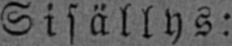Sisällys:
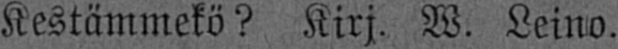Kestämmekö? Kirj. W. Leino.
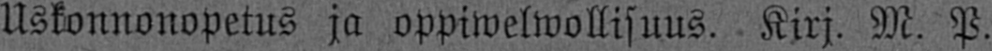Uskonnonopetus ja oppiwelwollisuus. Kirj. M. P.
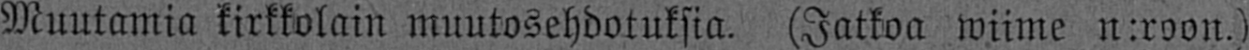Muutamia kirkkolain muutosehdotuksia. (Jatkoa wiime n:roon.)
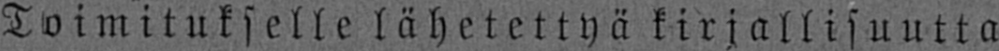Toimitukselle lähetettyä kirjallisuutta.
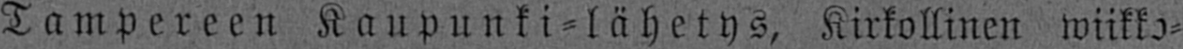Tampereen Kaupunki-lähetys, Kirkollinen wiikko-
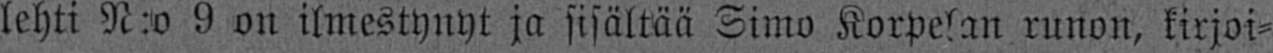lehti N:o 9 on ilmestynyt ja sisältää Simo Korpelan runon, kirjoi-
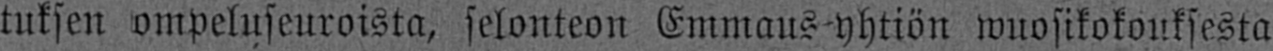tuksen ompeluseuroista, selonteon Emmaus-yhtiön wuosikokouksesta
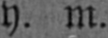y. m.
